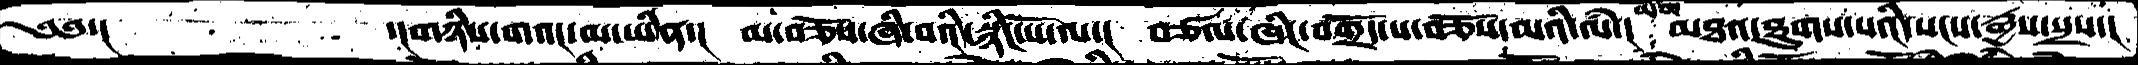༄༅་།    ་།གཉིས་གའང་མ་ཡིན་། མ་བཅོས་ཞི་བའི་སྙིང་པོ་ལ་། བཙལ་ཞིང་བགྲོད་པ་བཅོས་མའི་ལཾ་། མཐའ་ཐུགས་པའི་སངས་རྒྱས་སྲས་།
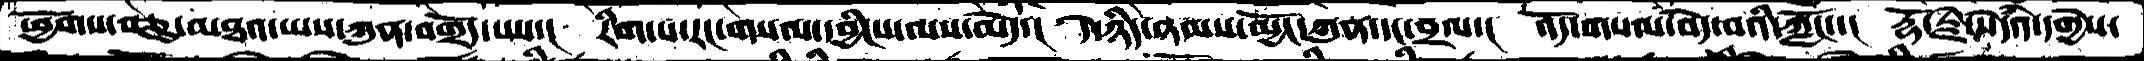ཕྱོགས་བཅུ་མཐའ་ཡས་ཀུན་བགྲོད་པས་།  རིག་པ་རང་གསལ་དབྱིངས་ལས་མེད་།  དེ་ཉིད་ཉམས་མྱོང་ཀུན་དང་བྲལ་།  འདོ་གསལ་བདེ་བའི་ཀློང་་།  རྡོ་རྗེ་སེདཾའ་དགྱེས་
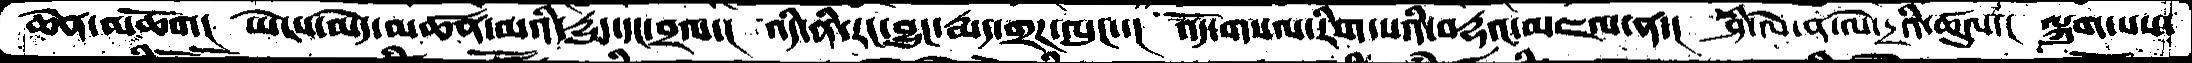ཆེན་མཆོག་།  ཡེངས་མེད་མཚན་མའི་དྱུད་དང་བྲལ་།  འདི་ནི་རང་བྱུང་རྨད་གྲཌ་ལུང་་།  འདོ་གསལ་རིག་པའི་བརྡའ་མཇལ་ན་།  ཤི་ལེ་ན་ལེ་དྲའི་ཚུལ་།  ལྐུག་པས་
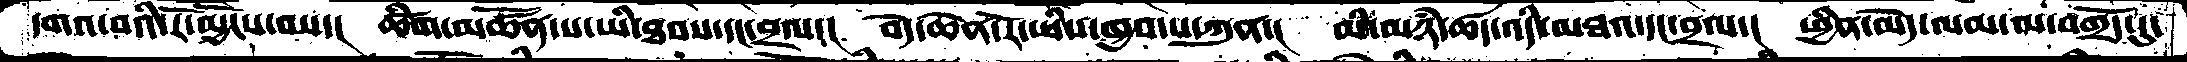དགའ་བའི་རོ་མྱོངས་བས་།  ཚིག་མཚོན་པ་ཡི་ཐབས་དང་བྲལ་།  བདེ་ཆེན་རོ་ཡིས་ཁྱབ་པ་ཀུན་།  མི་མཉཾ་ཚད་འདི་མཐའ་དང་བྲལ་།  ཕྱིན་མེད་ལམ་མ་བགྲོད་དུ་
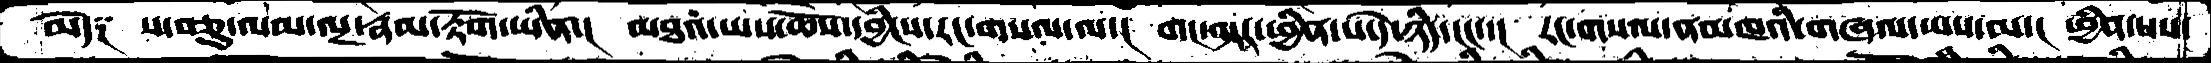མེད༑   ས་བཅུ་ལམ་ལྔ་རྣམ་རྟོག་ཡིན་།  མཐའ་ཡས་ཆོས་དབྱིངས་རང་གསལ་ལ་།  གང་ལྟར་ཕྱིན་པ་དེ་ཉིད་ངང་་།  རང་གསལ་ནམཁའི་གཞལ་ཡས་ལ་།  ཕྱིན་པས་
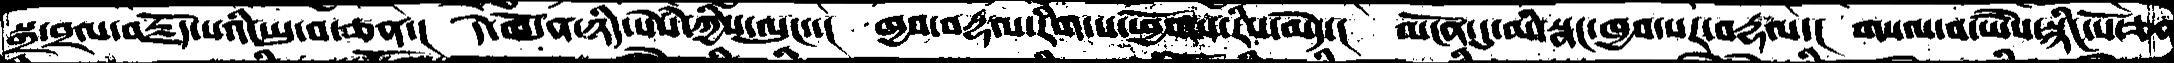སྒྲ་བྲལ་བརྗོད་པའི་ཡུ་བ་ཅན་།  དེ་ཁོ་ན་ཉིད་སེཾས་ཀྱིས་ལུང་་།  ཁྱབ་བརྡལ་རིག་པ་ཕྱོགས་རིས་མེད་།  མངོན་དུ་མི་སྣང་ཁྱབ་པར་བརྡལ་།  གསལ་བ་ཡཻས་སྙིང་པོ་ཅན
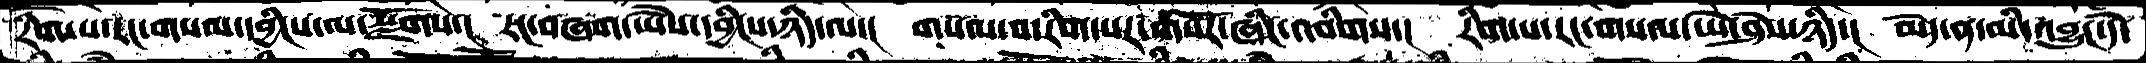རིག་པ་རང་གསལ་དབྱིངས་ལ་སྫོགས་།  རང་བཞག་ཡཻས་དབྱིངས་ཉིད་ལ་།  གསལ་བ་རིག་པར་གསོར་ཞིང་འབིགས་།  རིག་པ་རང་གསལ་ཡེ་ཤེས་ཉིད་།  མེད་ན་མི་འབྱུང་དེ་
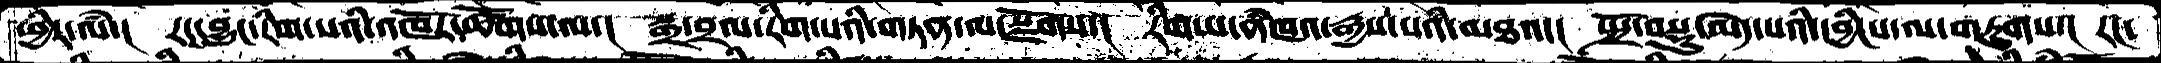ཕྱིར་ལཾ་།  རང་བྱུང་རིག་པའི་འཁོར་ཚོགས་ལ་།  སྒྲ་བྲལ་རིག་པའི་གཏན་ལ་སྫོགས་།  རིག་པ་ནཾཁའ་རྒྱས་པའི་མཐའ་།  སྤྲོ་བསྡུ་མེད་པའི་དབྱིངས་ལ་གཏུགས་།  རང་
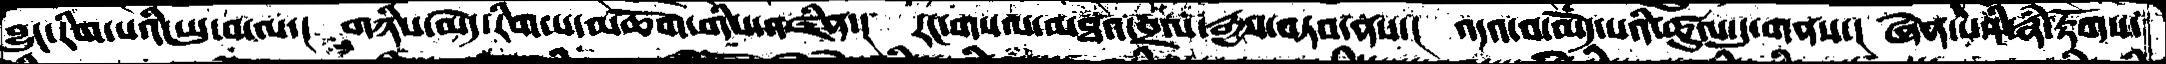བྱུང་རིག་པའི་ཡུ་བ་ལ་།  གཉིས་མེད་རིག་པ་མཆོག་གིས་འཛིན་།  རང་གསལ་མཐའ་བྲལ་རྒྱས་བཏབ་ནས་།  འདའ་བ་མེད་པའི་ཚུལ་དུ་གནས་།  ཞེན་པའི་རྣཾ་རྟོགས་
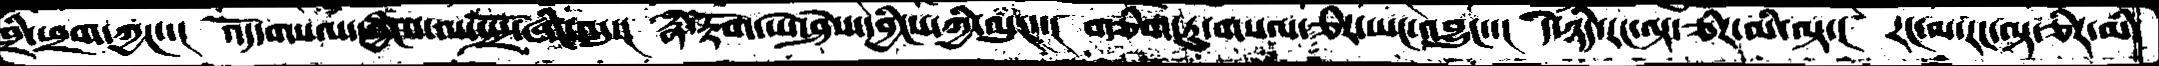ཁྲི་ཕྲག་ཀྱང་་།  འོད་གསལ་དབྱིངས་ལ་སྤྲོ་ཞིང་འདུ་།  རྣཾ་རྟོག་ཡེ་ཤེས་དབྱིངས་ཀྱི་ལུང་་།  གཅིག་ཏུ་གསལ་ཅིར་ཡང་འབྱུང་་།  དེ་ཉིད་རང་ལྟར་ཅིར་མི་ལྟ་།  རང་ལ་རང་ལྟ་ཅིར་མི་
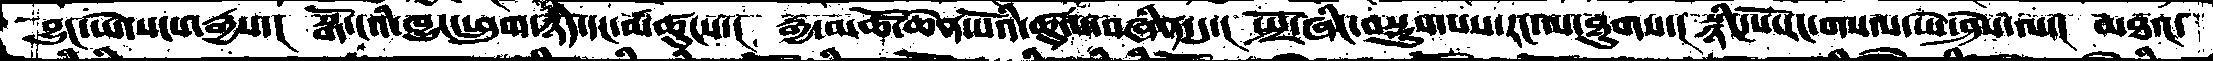བྱུང་ཡེ་སངས་རྒྱས་།  སྒོ་ངའི་ཁྱུང་ཕྲུག་ཉིད་དང་མཚུངས་།  རྒྱ་མཚོ་ཆེན་པོའི་ཚུལ་བཞིན་དུ་།  སྤྲོ་ཞིང་བསྡུས་པས་རང་ལ་ཐུགས་།  སྙིང་པོ་རང་གསལ་ཡེ་ཤེས་ལ་།  མཐའ་
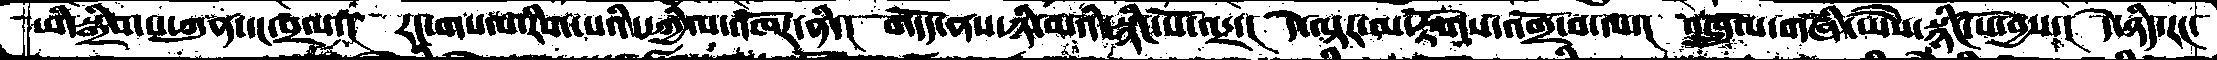ཡི་སྒྲིབ་པ་ཀུན་དང་བྲལ་།  རང་གསལ་རིག་པའི་དཀྱིལ་འཁོར་ནི་།  གདོད་ནས་ཉི་མའི་སྙིང་པོ་འདྲ་།  དེ་ལྟར་མ་རྟོགས་འགྲོ་བ་ལ་།  འཁྲུལ་གཞི་ཡཻས་སྙིང་པོ་བྱས་།  དེ་ཉིད་རང་
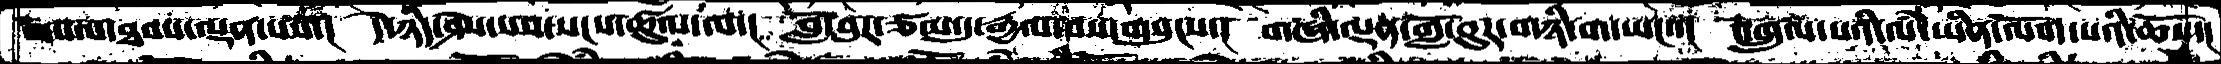གསལ་ཐབས་ལྡན་པའི་།  དེ་ཉིད་ཤེས་པས་སངས་ཚུལ་ལ་།  བློ་བུར་ཙམ་དུ་རྒྱལ་བས་གསུངས་།  གཞི་ལྡན་གློ་བུར་གཉི་ག་ཡང་་།  འཁྲུལ་པའི་ལཾ་ཡིན་ལོག་པའི་ཆོས་།
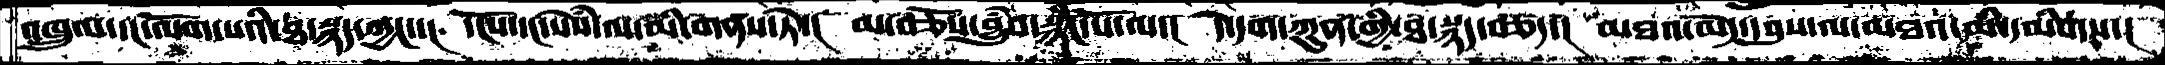འཁྲུལ་དང་ལོག་པའི་ཐ་སྙད་ཀྱང་་།  དངོས་དང་སེམས་ལ་མི་གནས་ཏེ་།  མ་བཅོས་བྱུཾབ་སྙིང་པོ་ལ་།  དེ་དག་ཀུན་གྱི་ཐ་སྙད་བཙད་།  མཐའ་མེད་དབུས་ལ་མཐའ་མི་དམིགས་།
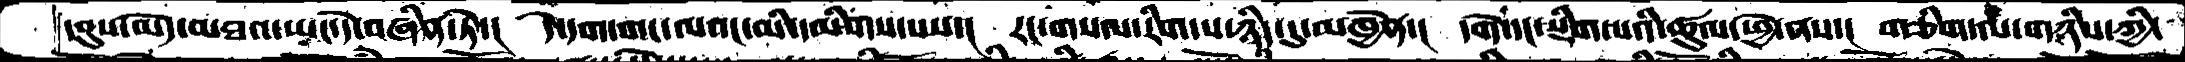དབུས་མེད་མཐའ་ཡང་དེ་བཞིན་ཏེ་།  དེ་དག་གང་ལའང་མི་དམིགས་པས་།  རང་གསལ་རིག་པ་ཉིད་དུ་མཁྱེན་།  དགེ་དང་སྡིག་པའི་ཚུལ་ཕྱེ་ནས་།  གཅིག་ལ་གཉིས་ཀྱི་
